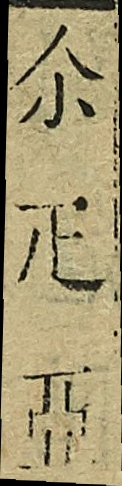尒疋亞
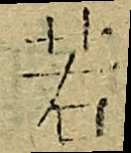若
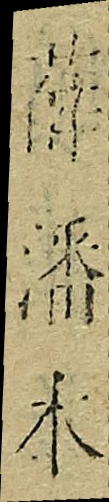薛潘木
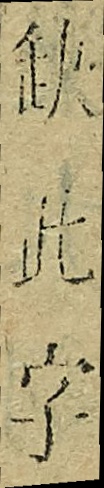缺此字
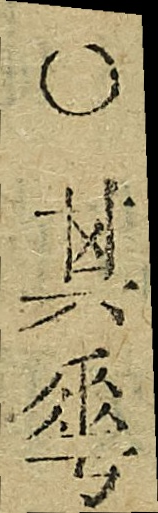其？
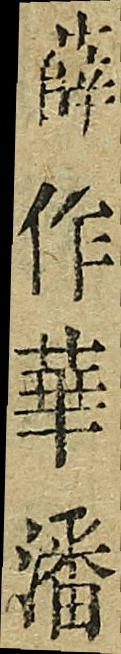薛作華潘
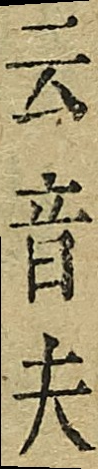云音夫
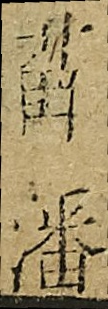薛潘
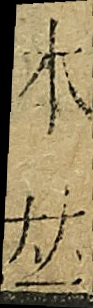木並
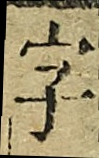字
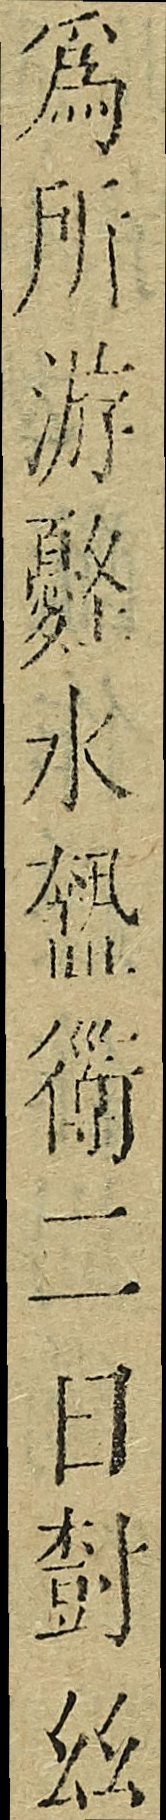爲所遊優水？衛二日對茲
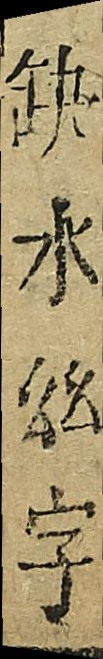缺水茲字
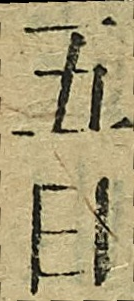五日
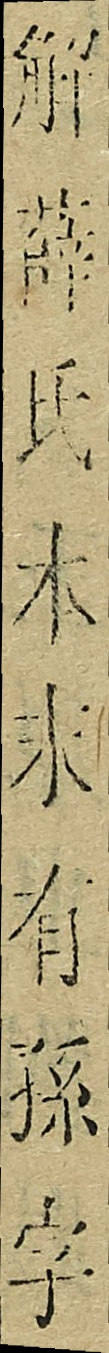解薛氏木末有孫字
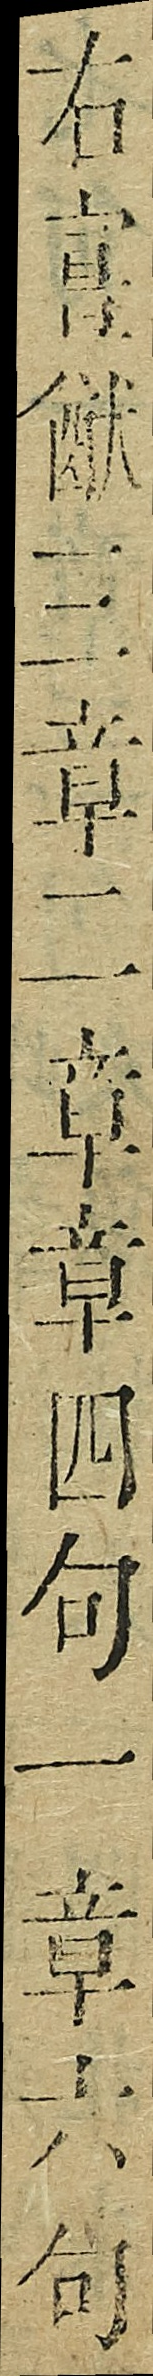右宴宣猷？三章二章章四句一章六句
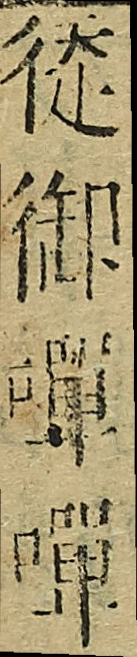徒御嘽嘽
